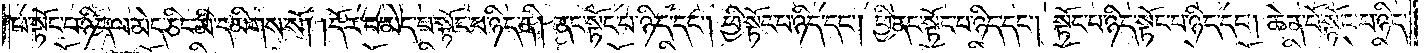པ་སྟོང་པ་ཉིད་ལ་མེད་ཅིང་མི་དམིགས་སོ། །དོར་བ་མེད་པ་སྟོང་པ་ཉིད་ནི། ནང་སྟོང་པ་ཉིད་དང༌། ཕྱི་སྟོང་པ་ཉིད་དང༌། ཕྱི་ནང་སྟོང་པ་ཉིད་དང༌། སྟོང་པ་ཉིད་སྟོང་པ་ཉིད་དང༌། ཆེན་པོ་སྟོང་པ་ཉིད་
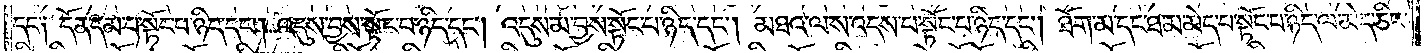དང༌། དོན་དམ་པ་སྟོང་པ་ཉིད་དང༌། འདུས་བྱས་སྟོང་པ་ཉིད་དང༌། འདུས་མ་བྱས་སྟོང་པ་ཉིད་དང༌། མཐའ་ལས་འདས་པ་སྟོང་པ་ཉིད་དང༌། ཐོག་མ་དང་ཐ་མ་མེད་པ་སྟོང་པ་ཉིད་ལ་མེད་ཅིང་
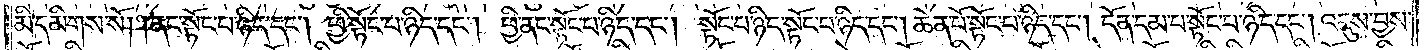མི་དམིགས་སོ། །ནང་སྟོང་པ་ཉིད་དང༌། ཕྱི་སྟོང་པ་ཉིད་དང༌། ཕྱི་ནང་སྟོང་པ་ཉིད་དང༌། སྟོང་པ་ཉིད་སྟོང་པ་ཉིད་དང༌། ཆེན་པོ་སྟོང་པ་ཉིད་དང༌། དོན་དམ་པ་སྟོང་པ་ཉིད་དང༌། འདུས་བྱས་
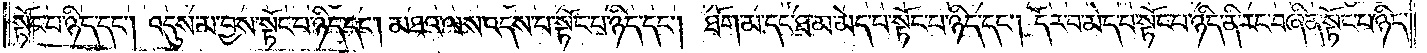སྟོང་པ་ཉིད་དང༌། འདུས་མ་བྱས་སྟོང་པ་ཉིད་དང༌། མཐའ་ལས་འདས་པ་སྟོང་པ་ཉིད་དང༌། ཐོག་མ་དང་ཐ་མ་མེད་པ་སྟོང་པ་ཉིད་དང༌། དོར་བ་མེད་པ་སྟོང་པ་ཉིད་ནི་རང་བཞིན་སྟོང་པ་ཉིད་
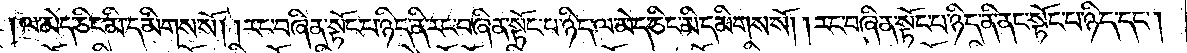ལ་མེད་ཅིང་མི་དམིགས་སོ། །རང་བཞིན་སྟོང་པ་ཉིད་ནི་རང་བཞིན་སྟོང་པ་ཉིད་ལ་མེད་ཅིང་མི་དམིགས་སོ། །རང་བཞིན་སྟོང་པ་ཉིད་ནི་ནང་སྟོང་པ་ཉིད་དང༌།
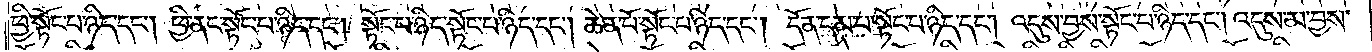ཕྱི་སྟོང་པ་ཉིད་དང༌། ཕྱི་ནང་སྟོང་པ་ཉིད་དང༌། སྟོང་པ་ཉིད་སྟོང་པ་ཉིད་དང༌། ཆེན་པོ་སྟོང་པ་ཉིད་དང༌། དོན་དམ་པ་སྟོང་པ་ཉིད་དང༌། འདུས་བྱས་སྟོང་པ་ཉིད་དང༌། འདུས་མ་བྱས་
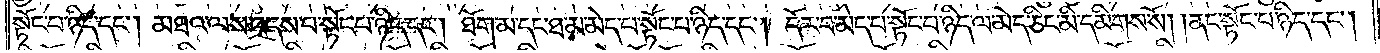སྟོང་པ་ཉིད་དང༌། མཐའ་ལས་འདས་པ་སྟོང་པ་ཉིད་དང༌། ཐོག་མ་དང་ཐ་མ་མེད་པ་སྟོང་པ་ཉིད་དང༌། དོར་བ་མེད་པ་སྟོང་པ་ཉིད་ལ་མེད་ཅིང་མི་དམིགས་སོ། །ནང་སྟོང་པ་ཉིད་དང༌།
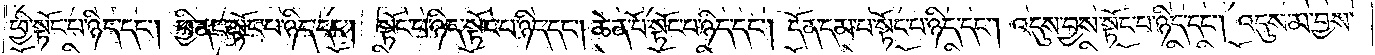ཕྱི་སྟོང་པ་ཉིད་དང༌། ཕྱི་ནང་སྟོང་པ་ཉིད་དང༌། སྟོང་པ་ཉིད་སྟོང་པ་ཉིད་དང༌། ཆེན་པོ་སྟོང་པ་ཉིད་དང༌། དོན་དམ་པ་སྟོང་པ་ཉིད་དང༌། འདུས་བྱས་སྟོང་པ་ཉིད་དང༌། འདུས་མ་བྱས་
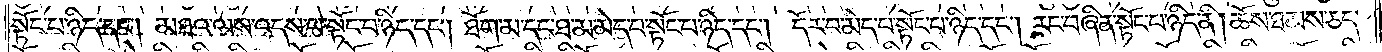སྟོང་པ་ཉིད་དང༌། མཐའ་ལས་འདས་པ་སྟོང་པ་ཉིད་དང༌། ཐོག་མ་དང་ཐ་མ་མེད་པ་སྟོང་པ་ཉིད་དང༌། དོར་བ་མེད་པ་སྟོང་པ་ཉིད་དང༌། རང་བཞིན་སྟོང་པ་ཉིད་ནི། ཆོས་ཐམས་ཅད་
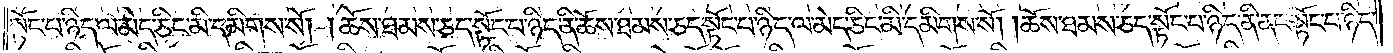སྟོང་པ་ཉིད་ལ་མེད་ཅིང་མི་དམིགས་སོ། །ཆོས་ཐམས་ཅད་སྟོང་པ་ཉིད་ནི་ཆོས་ཐམས་ཅད་སྟོང་པ་ཉིད་ལ་མེད་ཅིང་མི་དམིགས་སོ། །ཆོས་ཐམས་ཅད་སྟོང་པ་ཉིད་ནི་ནང་སྟོང་པ་ཉིད་
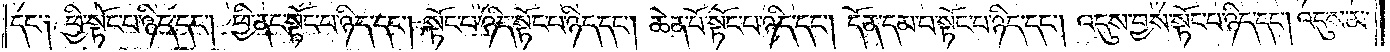དང༌། ཕྱི་སྟོང་པ་ཉིད་དང༌། ཕྱི་ནང་སྟོང་པ་ཉིད་དང༌། སྟོང་པ་ཉིད་སྟོང་པ་ཉིད་དང༌། ཆེན་པོ་སྟོང་པ་ཉིད་དང༌། དོན་དམ་པ་སྟོང་པ་ཉིད་དང༌། འདུས་བྱས་སྟོང་པ་ཉིད་དང༌། འདུས་མ་
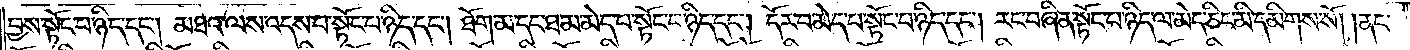བྱས་སྟོང་པ་ཉིད་དང༌། མཐའ་ལས་འདས་པ་སྟོང་པ་ཉིད་དང༌། ཐོག་མ་དང་ཐ་མ་མེད་པ་སྟོང་པ་ཉིད་དང༌། དོར་བ་མེད་པ་སྟོང་པ་ཉིད་ནི། རང་བཞིན་སྟོང་པ་ཉིད་ལ་མེད་ཅིང་མི་དམིགས་སོ། །ནང་
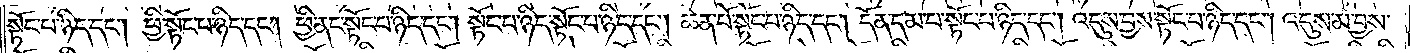སྟོང་པ་ཉིད་དང༌། ཕྱི་སྟོང་པ་ཉིད་དང༌། ཕྱི་ནང་སྟོང་པ་ཉིད་དང༌། སྟོང་པ་ཉིད་སྟོང་པ་ཉིད་དང༌། ཆེན་པོ་སྟོང་པ་ཉིད་དང༌། དོན་དམ་པ་སྟོང་པ་ཉིད་དང༌། འདུས་བྱས་སྟོང་པ་ཉིད་དང༌། འདུས་མ་བྱས་
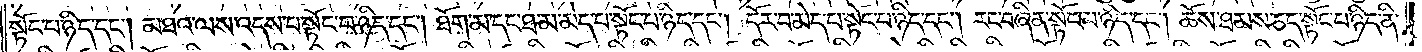སྟོང་པ་ཉིད་དང༌། མཐའ་ལས་འདས་པ་སྟོང་པ་ཉིད་དང༌། ཐོག་མ་དང་ཐ་མ་མེད་པ་སྟོང་པ་ཉིད་དང༌། དོར་བ་མེད་པ་སྟོང་པ་ཉིད་དང༌། རང་བཞིན་སྟོང་པ་ཉིད་དང༌། ཆོས་ཐམས་ཅད་སྟོང་པ་ཉིད་ནི།
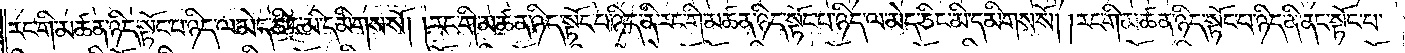རང་གི་མཚན་ཉིད་སྟོང་པ་ཉིད་ལ་མེད་ཅིང་མི་དམིགས་སོ། །རང་གི་མཚན་ཉིད་སྟོང་པ་ཉིད་ནི་རང་གི་མཚན་ཉིད་སྟོང་པ་ཉིད་ལ་མེད་ཅིང་མི་དམིགས་སོ། །རང་གི་མཚན་ཉིད་སྟོང་པ་ཉིད་ནི་ནང་སྟོང་པ་
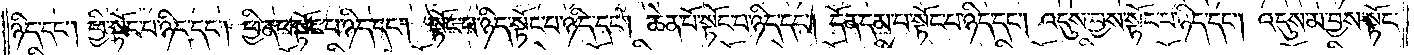ཉིད་དང༌། ཕྱི་སྟོང་པ་ཉིད་དང༌། ཕྱི་ནང་སྟོང་པ་ཉིད་དང༌། སྟོང་པ་ཉིད་སྟོང་པ་ཉིད་དང༌། ཆེན་པོ་སྟོང་པ་ཉིད་དང༌། དོན་དམ་པ་སྟོང་པ་ཉིད་དང༌། འདུས་བྱས་སྟོང་པ་ཉིད་དང༌། འདུས་མ་བྱས་སྟོང་
